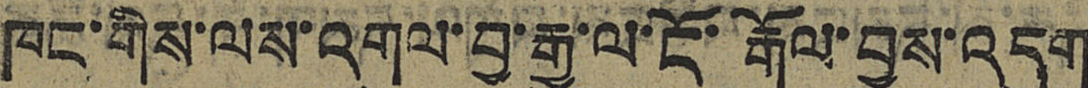ཁང་གིས་ལས་འགུལ་བྱ་རྒྱུ་ལ་ངོ་རྒོལ་བྱས་འདུག
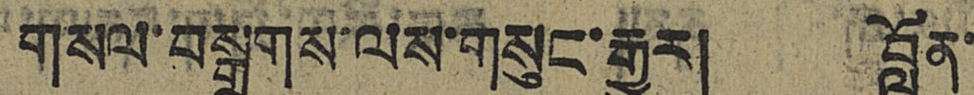གསལ་བསྒྲགས་ལས་གསུང་རྒྱུར། བློན་
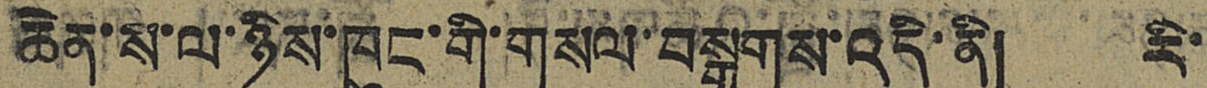ཆེན་ས་ལ་ཉིས་ཁུང་གི་གསལ་བསྒྲགས་འདི་ནི། རི་
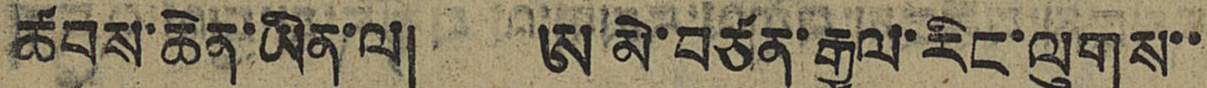ཚབས་ཆེན་ཡིན་ལ། ཨ་མེ་བཙན་རྒྱལ་རིང་ལུགས་་
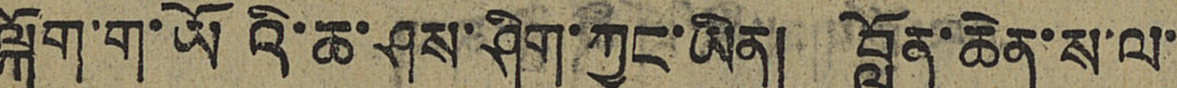ལྐོག་ག་ཡོའི་ཆ་ཤས་ཤིག་ཀྱང་ཡིན། བློན་ཆེན་ས་ལ་
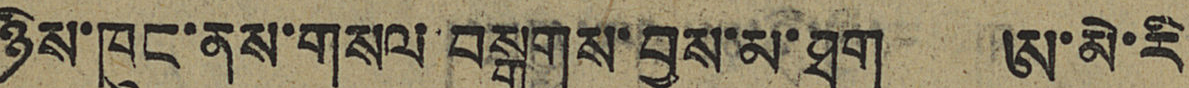ཉིས་ཁུང་ནས་གསལ་བསྒྲགས་བྱས་མ་ཐག ཨ་མེ་རི
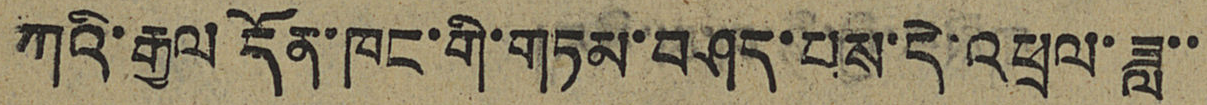ཀའི་རྒྱལ དོན་ཁང་གི་གཏམ་བཤད་པས་དེ་འཕྲལ་ཟླ་་
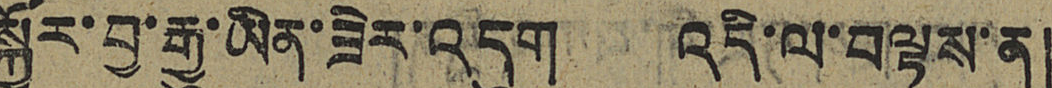སྐྱོར་བྱ་རྒྱུ་ཡིན་ཟེར་འདུག འདི་ལ་བལྟས་ན།
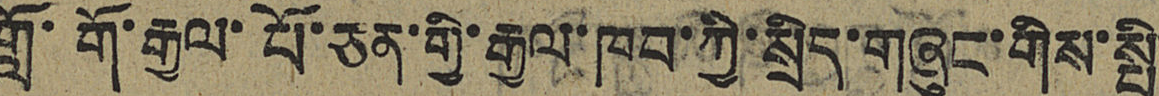གློ་གོ་རྒྱལ་པོ་ཅན་གྱི་རྒྱལ་ཁབ་ཀྱི་སྲིད་གཞུང་གིས་སྤྱི་
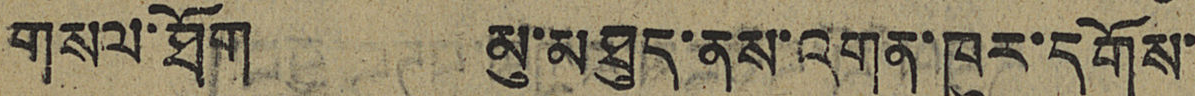གསལ་ཐོག མུ་མཐུད་ནས་འགན་ཁུར་དགོས་
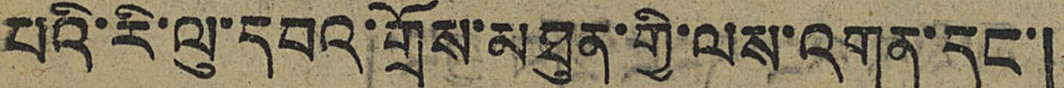པའི་རི་ལུ་དབའ་གྲོས་མཐུན་གྱི་ལས་འགན་དང་།
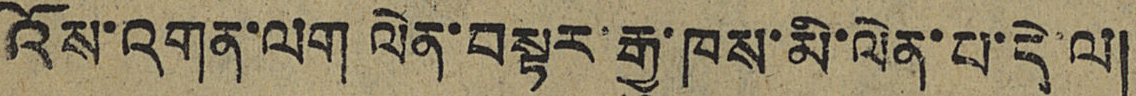འོས་འགན་ལག ལེན་བསྟར་རྒྱུ་ཁས་མི་ལེན་པ་དེ་ལ།
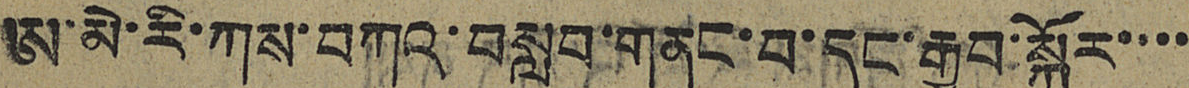ཨ་མེ་རི་ཀས་བཀའ་བསླབ་གནང་བ་དང་རྒྱབ་སྐྱོར་་་་
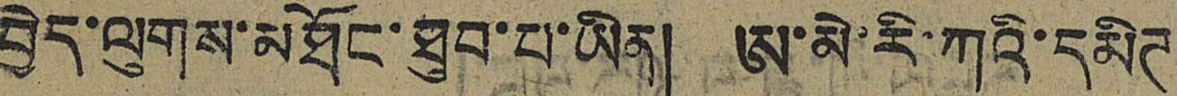བྱེད་ལུགས་མཐོང་ཐུབ་པ་ཡིན། ཨ་མེ་རི་ཀའི་དམིཊ
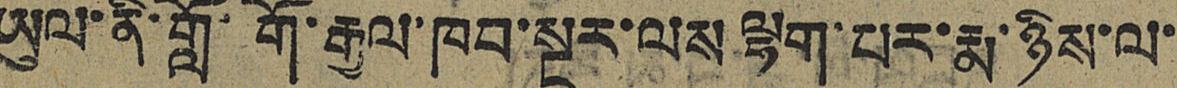ཡུལ་ནི་གློ་གོ་རྒྱལ་ཁབ་སྔར་ལས ལྷག་པར་རྨ་ཉིས་ལ་
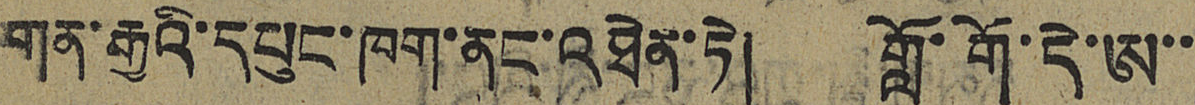གན་རྒྱའི་དཔུང་ཁག་ནང་འཐེན་ཏེ། གློ་གོ་དེ་ཨ་་
